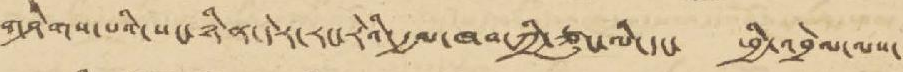གཤེགས་པའི་སང་ཉིན་དེར་རང་རེའི་རྒྱལ་ཁབ་ཀྱི་ཙུང་ལི་དང་ ཕྱི་འབྲེལ་ལས་
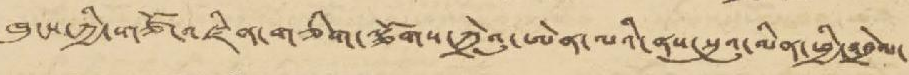ཁུངས་ཀྱི་གཙོ་འཛིན་གཅིག་ལྕོགས་ཀྲེའུ་ཨེན་ལའི་ནས་སུའུ་མིན་ཕྱི་འབྲེལ་
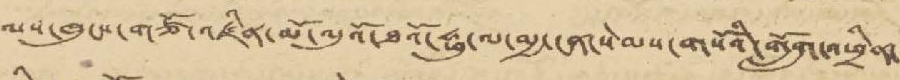ལས་ཁུངས་གཙོ་འཛིན་མོ་ལུའོ་ཐའོ་ཧྥུ་ལ་མྱ་ངན་སེམས་གསོའི་གློག་འཕྲིན་
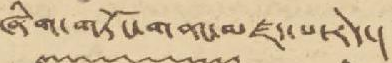ཞིག་གཏོང་གནང་མཛད་པ་རེད་།
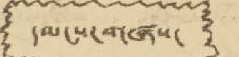དམངས་གཞས་
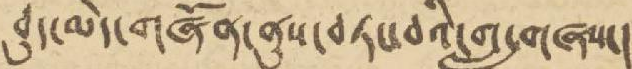བུད་མེད་གཞོན་ནུས་བཏང་བའི་གླུ་གཞས་།
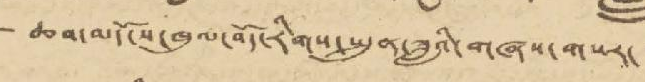ཆབ་མདོ་ས་ཁུལ་བོད་རིགས་སྤུན་ཟླའི་གཞས་གསར་
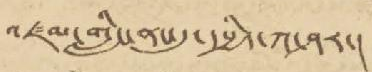འཛམ་གླིང་ནང་དུ་དཔྱིད་ཀ་ཤར་།
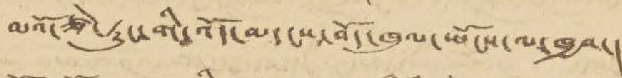མའོ་ཙེ་ཏུང་གི་འོད་མདངས་བོད་ཁུལ་ཡོངས་ལ་ཁྱབ་།
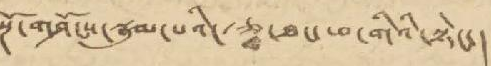སྔོ་གཤོངས་སྣུམ་པའི་རྩྭ་ཐང་ཕ་གིའི་སྟེང་།
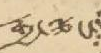རྒྱ་ལྕང་
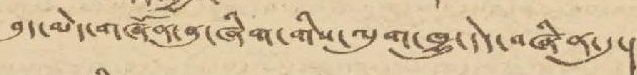བུད་མེད་གཞོན་ནུ་ཞིག་གིས་ལུག་ཁྱུ་དེད་བཞིན་དུ་།
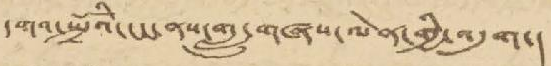དགའ་སྤྲོའི་ངང་ནས་གླུ་གཞས་ལེན་གྱི་འདུག་།
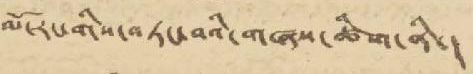མོ་རང་གིས་བཏང་བའི་གཞས་ཚིག་ནི་།
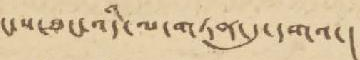ང་ས་ཐང་འདི་ལ་གཏན་དུ་དགའ་།
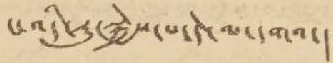ང་འདི་རུ་སྐྱེས་པ་དེ་ལ་དགའ་།
